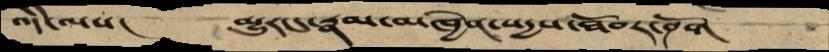འདི་ལས་།    མྱུར་དུ་རྣམ་མཁྱེན་སདྱས་ཐོབར་ཤོག
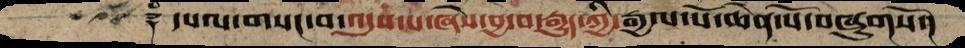༈   དཔལ་གསང་བ་འདུས་པ་ཞེས་བྱ་བ་རྒྱུད་ཀྱི་རྒྱལ་པོ་ཆེན་པོ་བཞུགསོ་།
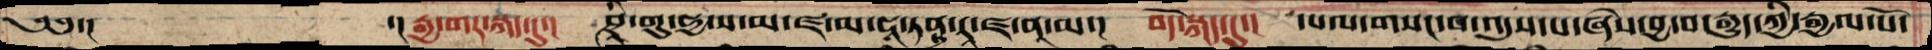༄༅་།      ་།རྒྱ་གར་སྐད་དུ་།  ཤྲི་གུ་ཧྱ་ས་མ་ཛ་མ་ཧཱ་ཏནྟྲ་རཱ་ཛ་ནཱ་མ་།  བོད་སྐད་དུ་།   དཔལ་གསང་བ་འདུས་པ་ཞེས་བྱ་བ་རྒྱུད་ཀྱི་རྒྱལ་པོ་
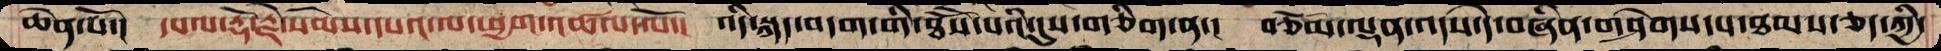ཆེན་པོ་།  དཔལ་རྡོ་རྗེ་སེམས་དཔའ་ལ་ཕྱག་འཚལ་ལོ་།  འདི་སྐད་བདག་གི་ཐོས་པའི་དུས་གཅིག་ན་།  བཅོམ་ལྡན་འདས་དེ་བཞིན་གཤེགས་པ་ཐམས་ཅད་ཀྱི་
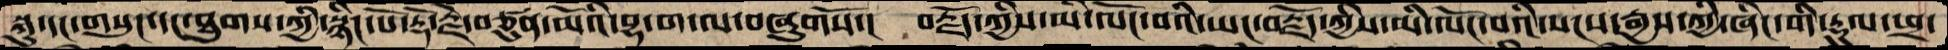སྐུ་དང་གསུང་དང་ཐུགས་ཀྱི་སྙིང་པོ་རྡོ་རྗེ་བཙུན་མོའི་བྷ་ག་ལ་བཞུགསོ་།  བརྗོད་ཀྱིས་མི་ལོང་བའི་ཡང་བརྗོད་ཀྱིས་མི་ལོང་བའི་སངས་རྒྱས་ཀྱི་ཞིང་གི་རྡུལ་ཕྲ་
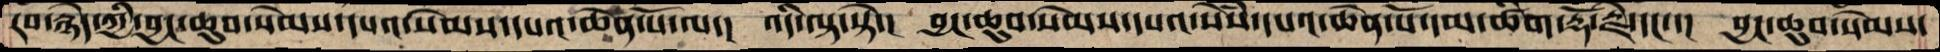རབ་སྙེད་ཀྱི་བྱང་ཆུབ་སེམས་དཔའ་སེམས་དཔའ་ཆེན་པོ་ལ་།  འདིལྟ་སྟེ་།  བྱང་ཆུབ་སེམས་དཔའ་སེཾས་དཔའ་ཆེན་པོ་དམ་ཚིག་རྡོ་རྗེ་དང་་།  བྱང་ཆུབ་སེམས་
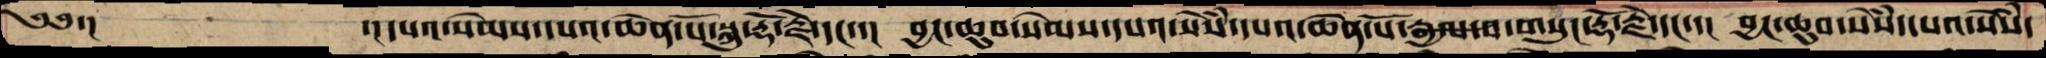༄༅་།   ་།དཔའ་སེམས་དཔའ་ཆེན་པོ་སྐུ་རྡོ་རྗེ་དང་་།  བྱང་ཆུབ་སེམས་དཔའ་སེཾས་དཔའ་ཆེན་པོ་རྒྱལ་བ་གསུང་རྡོ་རྗེ་དང་་།  བྱང་ཆུབ་སེཾས་དཔའ་སེཾས་
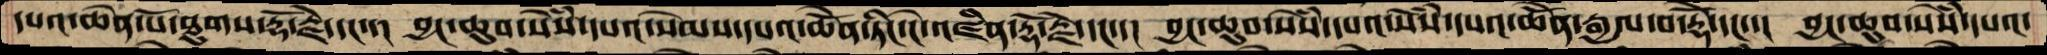དཔའ་ཆེན་པོ་ཐུགས་རྡོ་རྗེ་དང་་།  བྱང་ཆུབ་སེཾས་དཔའ་སེམས་དཔའ་ཆེནོ་ཏིང་ངེ་འཛིན་རྡོ་རྗེ་དང་་།  བྱང་ཆུབ་སེཾས་དཔའ་སེཾས་དཔའ་ཆེནོ་རྒྱལ་བ་རྡོེ་དང་།  བྱང་ཆུབ་སེཾས་དཔའ་
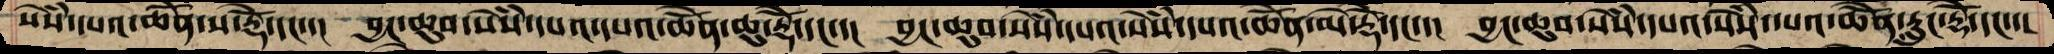སེཾས་དཔའ་ཆེནོ་ས་རྡོེ་དང་་།   བྱང་ཆུབ་སེཾས་དཔའ་དཔའ་ཆེནོ་ཆུ་རྡོེ་དང་་།  བྱང་ཆུབ་སེཾས་དཔའ་སེཾས་དཔའ་ཆེནོ་མེ་རྡོ་རྗེ་དང་་།  བྱང་ཆུབ་སེཾས་དཔའ་སེཾས་དཔའ་ཆེནོ་རླུང་རྡོེ་དང་་།
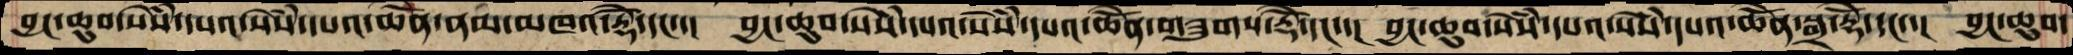བྱང་ཆུབ་སེཾས་དཔའ་སེཾས་དཔའ་ཆེནོ་ནམ་མཁའ་རྡོེ་དང་་།  བྱང་ཆུབ་སེཾས་དཔའ་སེཾས་དཔའ་ཆེནོ་གཟུགས་རྡོེ་དང་་།  བྱང་ཆུབ་སེཾས་དཔའ་སེཾས་དཔའ་ཆེནོ་སྒྲ་རྡོེ་དང་་།  བྱང་ཆུབ་
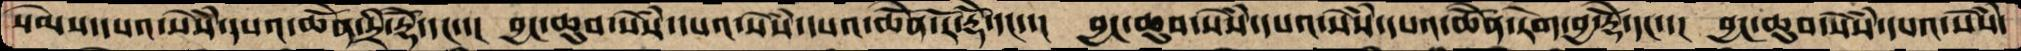སེམས་དཔའ་སེཾས་དཔའ་ཆེནོ་དྲི་རྡོེ་དང་་།  བྱང་ཆུབ་སེཾས་དཔའ་སེཾས་དཔའ་ཆེནོ་རོ་རྡོེ་དང་་།  བྱང་ཆུབ་སེཾས་དཔའ་སེཾས་དཔའ་ཆེནོ་རེག་བྱ་རྡོེ་དང་་།  བྱང་ཆུབ་སེཾས་དཔའ་སེཾས་
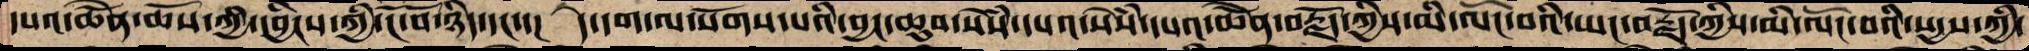དཔའ་ཆེནོ་ཆོས་ཀྱི་དབྱིངས་ཀྱི་ངོ་བོ་ཉིད་དང་་།  དེ་དག་ལ་སོགས་པའི་བྱང་ཆུབ་སེཾས་དཔའ་སེཾས་དཔའ་ཆེནོ་བརྗོད་ཀྱིས་མི་ལོང་བའི་ཡང་བརྗོད་ཀྱིས་མི་ལོང་བའི་སདྱས་ཀྱི་
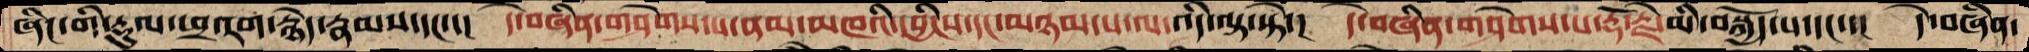ཞིང་གི་རྡུལ་ཕྲ་རག་རྙེད་རྣམས་དང་་།  དེ་བཞིན་གཤེགས་པ་ནམ་མཁའི་དབྱིངས་དང་མཉམ་པ་ལ་འདི་ལྟ་སྟེ་།  དེ་བཞིན་གཤེགས་པ་རྡོ་རྗེ་མི་བསྐྱོད་པ་དང་་།  དེ་བཞིན་
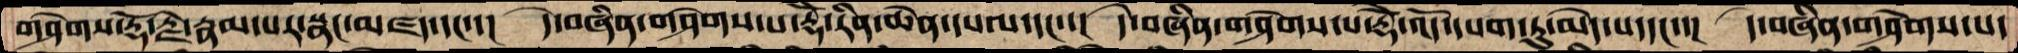གཤེགས་རྡོ་རྗེ་རྣམ་པར་སྣང་མཛད་དང་་།   དེ་བཞིན་གཤེགས་པ་རྡོེ་རིན་ཆེན་དཔལ་དང་་།  དེ་བཞིན་གཤེགས་པ་རྡོེ་འོད་དཔག་ཏུ་མེད་པ་དང་་།  དེ་བཞིན་གཤེགས་པ་
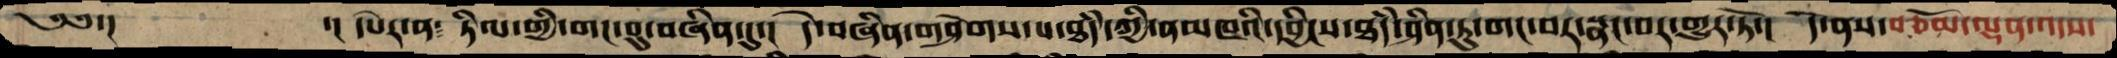༄༅་།        ་།དཔེར་ན༴  ཏིལ་གྱི་གང་བུ་བཞིན་དུ་།  དེ་བཞིན་གཤེགས་པ་ཐཾད་ཀྱི་ནམ་མཁའི་དབྱིངས་ཐཾད་ཤིན་ཏུ་གང་བར་སྣང་བར་གྱུར་ཏོ་།   དེ་ནས་བཅོམ་ལྡན་འདས་
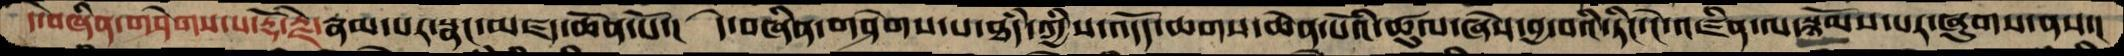དེ་བཞིན་གཤེགས་པ་རྡོ་རྗེ་རྣམ་པར་སྣང་མཛད་ཆེན་པོ་།  དེ་བཞིན་གཤེགས་པ་ཐཾད་ཀྱིས་འདོད་ཆགས་ཆེན་པའི་ཚུལ་ཞེས་བྱ་བའི་ཏིང་ངེ་འཛིན་ལ་སྙོམས་པར་ཞུགས་ནས་།
